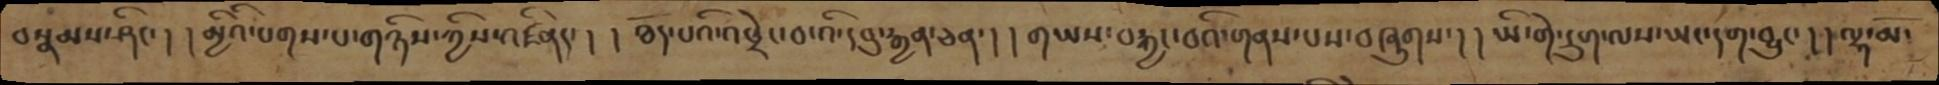བསྣམས་ཤིང་། །མྱིའི་པགས་པ་གཉིས་ཀྱིས་འཛིནད་། །ཐོད་པའི་འཕྲེང་བ་འི་དབུ་རྒྱན་ཅན་། །གཡས་བརྐྱང་བའི་གནས་པས་བཞུགས་། །ཡི་གེ་དྲུག་ལས་ཡང་དག་བྱུང་། །ལྷ་མོ་
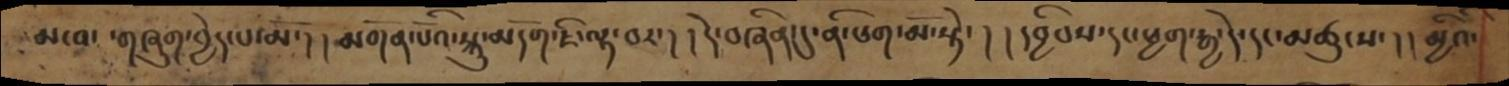མངའ་གཞུག་བྱེད་པ་མོ་། །མགོན་པོའི་སྐུ་མདོག་ཇི་ལྟ་བར་། །དེ་བཞིན་དུ་ནི་ཕག་མོ་སྟེ་། །དབྱིབས་དང་ཕྱག་རྒྱ་དེ་དང་མཚུངས་། །མྱིའི་
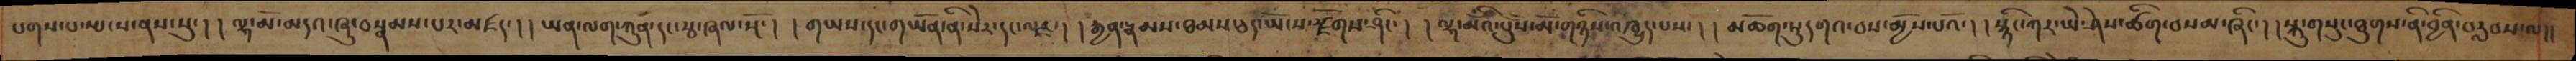པགས་པ་སྤངས་ནས་སུ་། །ལྷ་མོ་མདའ་ཞུ་བསྣམས་པར་མཛད་། །ཡན་ལག་ཀུན་དང་རྩ་ཞལ་སྔོ་། །གཡས་དང་གཡོན་ནི་སེར་དང་ལྗང་། །རྒྱན་རྣམས་ཐམས་ཅད་ཡོངས་རྫོགས་ཤིང་། །ལྷ་མོའི་པུས་མོ་གཉིས་འཁྱུད་པས་། །མཆོག་ཏུ་དགའ་བས་མྱོས་པའོ་། །སྙིང་ཀར་ཡེ་ཤེས་ཚིག་བསམ་ཞིང་། །སྐུ་གསུང་ཐུགས་ནི་བྱིན་བརླབས་ལ་།།
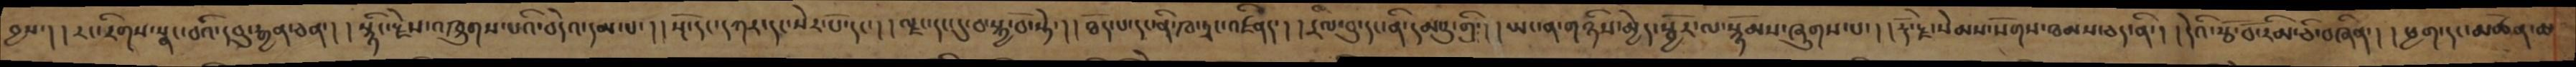བྱས་། །རང་རིགས་སྣང་བའི་དབུ་རྒྱན་ཅན་། །སྙིང་རྗེས་འཁྲུགས་པའི་བདེའ་དམ་པ་། །སྔོ་དང་དཀར་དང་སེར་པོ་དང་། །ལྗང་དང་དུ་བ་སྐྱ་བོ་སྟེ་། །ཐོད་པ་དང་ནི་ཁ་ཏྭང་འཛིནད་། །དྲིལ་བུ་དང་ནི་དམ་རུ་གྲི་། །ཡང་ན་གཉིས་མྱེད་སྦྱོར་ལ་སྙོམས་ཞུགས་པ་། །རྡོ་རྗེ་སེམས་སོགས་ཐམས་ཅད་ནི་། །དེའི་རྩོ་བོ་རིམ་ཅི་བཞིན་། །ཕྱག་དང་མཚོན་ཆ་
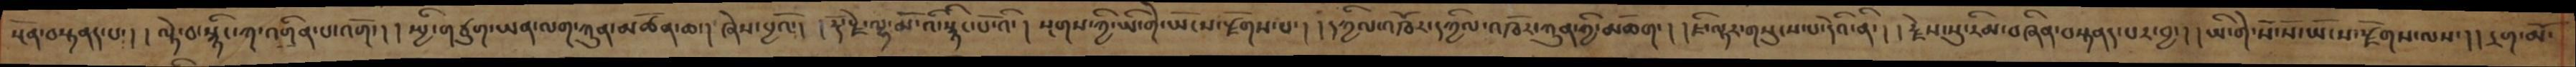སྔོན་བསྟནད་པ་། །ལྟེ་བ་སྙིང་ཀ་འགྲིན་པ་འགོད་། །སྤྱི་གཙུག་ཡན་ལག་ཀུན་མཚོན་ཆ་། ཞེས་བྱའོ་། །རྡོ་རྗེ་ལྷ་མོ་འི་སྙིང་པོ་འི་། སྔགས་ཀྱི་ཡི་གེ་ཡོངས་རྫོགས་པ་། །དཀྱིལ་འཁོར་དཀྱིལ་འཁོར་ཀུན་གྱི་མཆོག་། །ཇི་ལྟར་གསུངས་པ་དེའི་ནི་། །རྗེས་སུ་རིམ་བཞིན་བསྟནད་པར་བྱ་། །ཡི་གེ་སོ་སོ་ཡོངས་རྫོགས་ལས་། །དྲག་མོ་
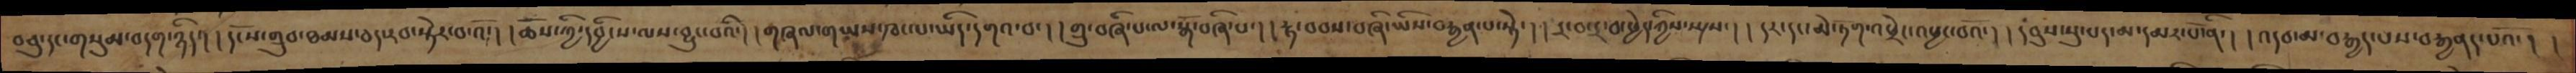བཅུ་དང་གསུམ་བདག་ཉིད་། །དངོས་གྲུབ་ཐམས་ཅད་རབ་སྟེར་བ་འོ་། །ཆོས་ཀྱི་དབྱིངས་ལས་བྱུང་བའི་། །གཞལ་ཡས་ཁང་ལ་ཡིད་དགའ་བ་། །གྲུ་བཞི་པ་ལ་སྒོ་བཞི་པ་། །རྟ་བབས་བཞི་ཡིས་བརྒྱན་པ་སྟེ་། །དྲ་བ་དྲ་བ་ཕྱེད་ཀྱིས་སྤྲས་། །དར་དང་མེ་ཏོག་འཕྲེང་འཕྱང་བའོ་། །དབུས་སུ་པད་མ་དམར་པོ་ནི་། །འདབ་མ་བརྒྱད་པས་བརྒྱནད་པའོ་། །
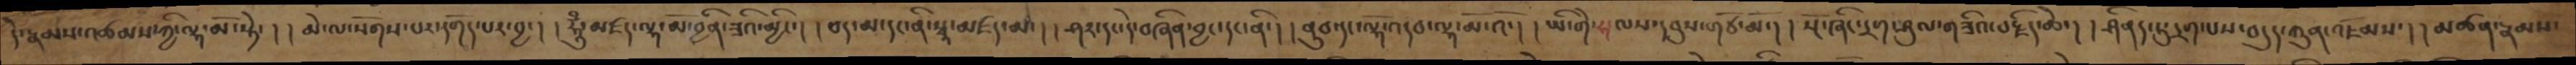དེ་རྣམས་འཚམས་ཀྱི་ལྷ་མོ་སྟེ་། །མེ་ལ་སོགས་པར་དགོད་པར་བྱ་། །ཧཱུྃ་མཛ་ལྷ་མོ་བྱིན་ཟའི་མྱིང་། །པད་མ་དང་ནི་སྭཱ་མཛད་མ་། །ཤར་དང་དེ་བཞིན་བྱང་དང་ནི་། །ནུབ་དང་ལྷོ་འདབ་ལྷ་མོ་འོ་། །ཡི་གེ་ཧ་ལས་དབུས་གཙོ་མོ་། །སྔོ་ཞིང་དྲག་ཤུལ་གཟིའ་བརྗིད་ཆེ་། །ཤིནད་ཏུ་དྲག་པས་བདུད་ཀུན་འཇོམས་། །མཚན་རྣམས་
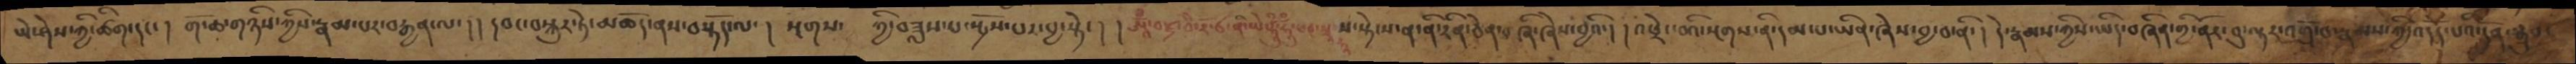ཡེ་ཤེས་ཀྱི་ཚིག་དང་ ། གོ་ཆ་གཉིས་ཀྱིས་རྣམ་པར་བརྒྱན་ལ་ །། དབང་བསྐུར་ཏེ་མཆོད་ནས་བསྟོད་ལ་ ། སྔགས་ཀྱི་བཟླས་པ་སྦྱོར་བར་བྱ་སྟེ་ ། །ཨཱོྃ་བཛྲ་བཻ་རོ་ཙ་ནི་ཡེ་ཧཱུྃ་ཧཱུྃ་ཕཊ་སྭཱ་ཧཱ་ས་སྟེངས་ན་ནི་རིན་ཅེན་བཞི་ཞེས་བྱའི་། །འཕྲེང་བའི་སྔགས་ནི་དམ་པ་ཡིན་ཞེས་བྱ་བ་ནི་ ། དེ་རྣམས་ཀྱིས་ཡིད་བཞིན་གྱི་ནོར་བུ་ལྟར་འགྲོ་བ་རྣམས་ཀྱི་འདོད་པའི་དོན་སྒྲུབ་
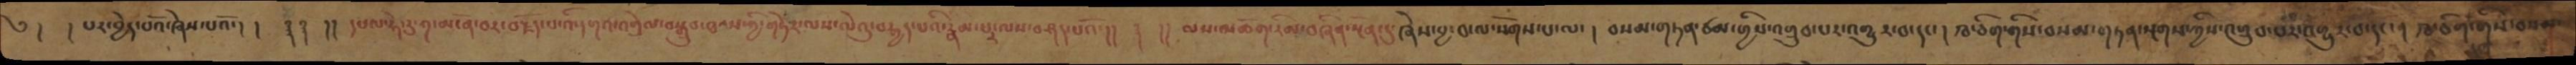༄། ། པར་བྱེད་པའོ་ཞེས་པའོ་། །  ༈༈  །།དཔལ་ཧེ་རུ་ཀ་མངོན་བར་བརྗོད་པ་འི་དཀའ་འགྲེལ་བསྒྲུབ་ཐབས་ཀྱི་གཏེར་ལས་ལེའུ་བརྒྱད་པའི་རྣམ་པར་ལས་བཤད་པའོ་།། ༈ །།ལས་མཆོག་རིམ་བཞིན་སྔོན་དུ་ཞེས་བྱ་བ་ལ་སོགས་པ་ལ་ ། བསམ་གཏན་ཙམ་གྱིས་འགྲུབ་པར་འགྱུར་བ་དང་། ཁ་ཅིག་གིས་བསམ་གཏན་སྔགས་ཀྱི་འགྲུབ་པར་འགྱུར་བ་དང་ ། ཁ་ཅིག་གིས་བསམ་
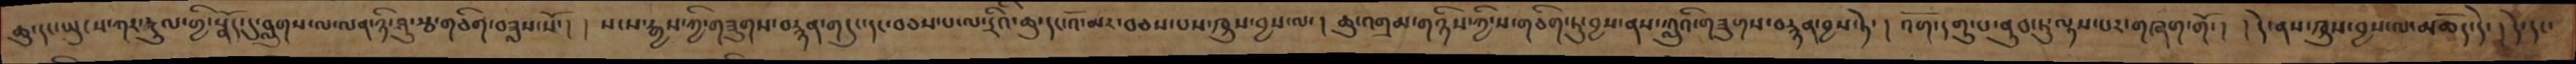ཆུ་དང་ཡུངས་ཀར་རྔུལ་གྱི་སྣོད་དུ་བླུགས་ལ་ལན་ཉི་ཤུ་རྩ་གཅིག་བཟླས་སོ་། ། སངས་རྒྱས་ཀྱི་གཟུགས་བརྙན་གདུང་དང་བཅས་པ་ལ་དྲིའི་ཆུ་དང་འོ་མར་བཅས་པས་ཁྲུས་བྱས་ལ་། ཆུ་འགྲམ་གཉིས་ཀྱི་ས་གཅིག་ཏུ་བྱས་ནས་ཀླུའི་གཟུགས་བརྙན་བྱས་ཏེ་ ། འོག་དགུ་པ་ནུབ་ཏུ་ལྟས་པར་གཞག་གོ་། །དེ་ནས་ཁྲུས་བྱས་ལ་མཆོད་དེ་ །དེ་དང་
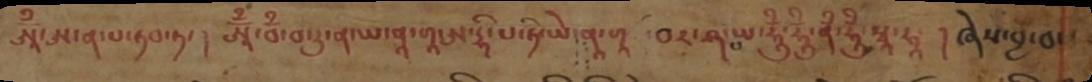ཨཱོྃ་ཨ་ན་པ་ཏབ་ཏ་ ། ཨཱོྃ་བྃ་བ་རུ་ན་ཡ་ནཱ་གཱ་ཨ་དྷི་པ་ཏི་ཡེ་ནཱ་གཱ བར་ཤ་པ་ཡ་ཧཱུྃ་ཧཱུྃ་ནྃ་ཧཱུྃ་སྭཱ་ཧཱ་ ། ཞེས་བྱ་བ་
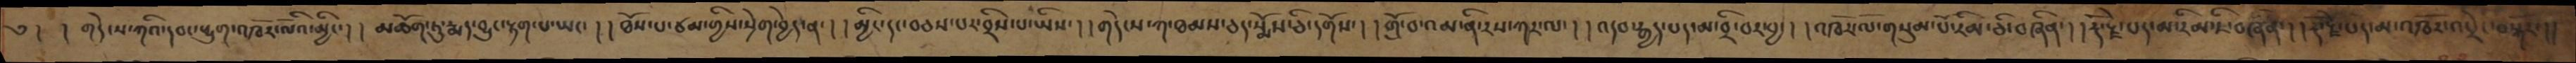༄ ། །གདེངས་ཀའི་དབང་ཕྱུག་འཁོར་ལོའི་མྱིང་། །མཆོག་ཏུ་རྨད་བྱུང་ལྟག་པ་ཡང་ ། །ཐོས་པ་ཙམ་གྱིས་སྲེག་བྱེད་ན་ ། །མྱིང་དང་བཅས་པར་བྲིས་པ་ཡིས་ ། །གདེངས་ཀ་ཐམས་ཅད་སྨོས་ཅི་དགོས་ ། །གྲོ་བ་འམ་ནི་རས་ཀར་ལ་ ། །འདབརྒྱད་པད་མ་བྲི་བར་བྱ་ ། །འཁོར་ལོ་གསུམ་པོ་རིམ་ཅི་བཞིན་ ། །རྡོ་རྗེ་པད་མ་རིམ་ཇི་བཞིན་ ། །རྡོ་རྗེ་པད་མ་འཁོར་འཕྲེང་བསྐོར་།།
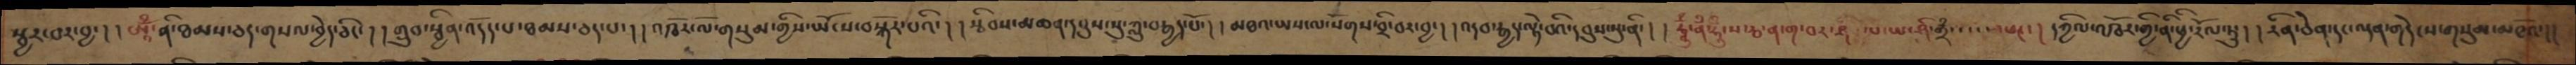སྦྱར་བར་བྱ་། ཨཱོྃ་ནི་ཐམས་ཅད་གསལ་བྱེད་ཅིང་། །གྲུབ་སྦྱིན་འདོད་པ་ཐམས་ཅད་པ་། །འཁོར་ལོ་གསུམ་གྱིས་ཡོངས་བསྐོར་པའི་། །རྩིབས་མཆན་དབུས་སུ་ཀླུ་བརྒྱད་པོ་། །མཐའ་ཡས་ལ་སོགས་བྲི་བར་བྱ་། །འདབ་བརྒྱད་ལྟེ་བའི་དབུས་སུ་ནི་། །ཧཱུྃ་ནྃ་ཧཱུྃ་ས་རྦ་ན་ག་བར་ཤི་ལ་ཡ་ཤི་གྲྃ་་་་ཕཊ་། དཀྱིལ་འཁོར་གྱི་ནི་ཕྱི་རོལ་ཏུ་། །རིན་ཅེན་དང་ལྡན་གདེངས་གསུམ་མཐོའ་།།
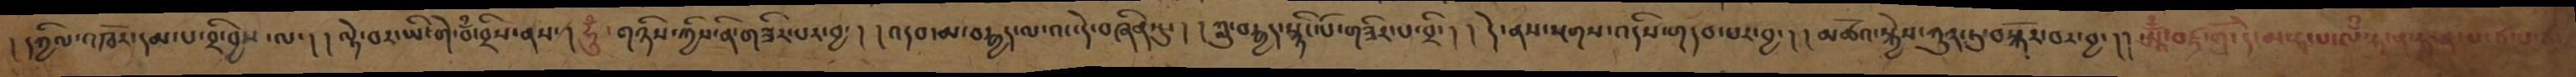། དཀྱིལ་འཁོར་དམ་པ་བྲི་བྱས་ལ་། །ལྟེ་བར་ཡི་གེ་བྃ་བྲིས་ནས་། ཧཱུྃ་གཉིས་ཀྱིས་ནི་གཟིར་པར་བྱ་། །འདབ་མ་བརྒྱད་ལ་འང་དེ་བཞིན་དུ་། །ཀླུ་བརྒྱད་སྙིང་པོ་གཟིར་པ་བྲི་། །དེ་ནས་སྔགས་འདིས་གདབ་པར་བྱ་། །མཚོའ་སྐྱེས་ཀུན་ཏུ་བསྐོར་བར་བྱ་།།ཨཱོྃ་བཛྲ་གྲ་དེ་མ་ཧ་པ་ལྃ་ཧཱ་ན་ཧཱ་ན་པ་ཙ་པ་ཙ་
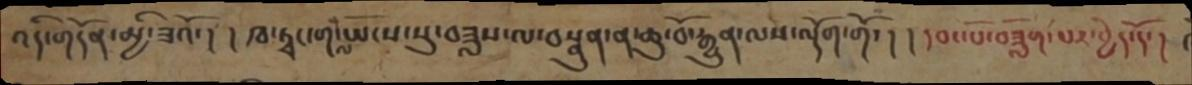འདི་གདོན་མྱི་ཟའོ་། །ཁ་ཏྭང་ག་ལ་ཡོངས་སུ་བཟླས་ལ་བསྣུན་ན་ཆུ་བོ་རྒྱུན་ལས་ལྡོག་གོ་། །དབང་པོ་བཟློག་པར་བྱེད་དོ་།
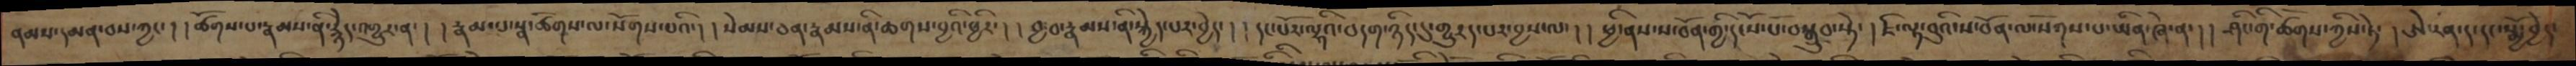ནམས་དམན་བས་ཀྱང་། །ཚོགས་པ་རྣམས་ནི་རྙེད་འགྱུར་ན་། །རྣམ་པ་སྣ་ཚོགས་ལ་སོགས་པའི་། །སེམས་ཅན་རྣམས་ནི་ཆགས་བྱའི་ཕྱིར་། །བྱ་བ་རྣམས་ནི་སྐྱེད་པར་བྱེད་། །དང་པོར་ལྷའི་བདག་ཉིད་དུ་གྱུརད་པར་བྱས་ལ་། །ཕྱི་ནས་ས་བོན་གྱི་དངོས་པོ་བསྒྲུབ་སྟེ་ ། ཇི་ལྟ་བུའི་ས་བོན་ལ་སོགས་པ་ཡིན་ཞེ་ན་། །ཤིང་གི་ཚོགས་ཀྱིས་ཏེ་ ། ཨེ་རན་ད་དང་སྨྱོ་བྱེད་
